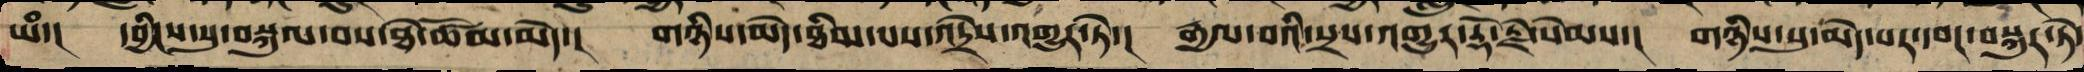ཡཾ་། དབྱིངས་སུ་བསྐུལ་བས་ཐེ་ཚོམ་མེད་། གཉིས་མེད་ཐིམ་པས་འདྲེས་འགྱུར་ཏེ་། རྒྱལ་བའི་སྲས་འགྱུར་རྡོ་རྗེ་སེམས་། གཉིས་སུ་མེད་པར་དབང་བསྐུར་ཏེ་
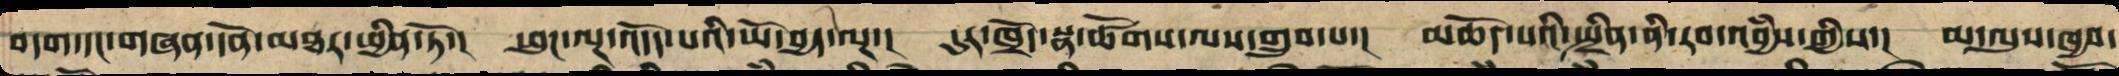བདག་དང་གཞན་དོན་མཐར་ཕྱིན་ཏོ་། ཕུང་ལྔ་འདོད་པའི་ཡོ་བྱད་ལྔ་། དུར་ཁྲོད་སྣ་ཚོགས་ལས་གྲུབ་པ་། མཆོད་པའི་སྤྲིན་ནི་རབ་འབྱཾས་ཀྱིས་། མ་ལུས་ཁྱབ་
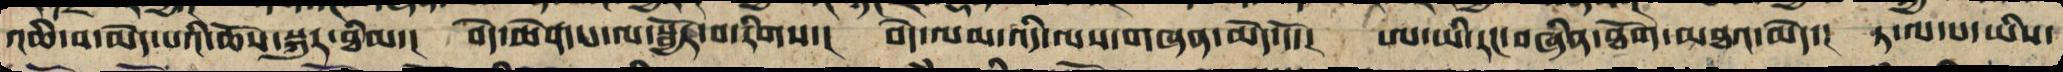འཆི་བ་མེད་པའི་ཆོས་སྐུར་ཐིམ་། བདེ་ཆེན་ས་ལ་སྦྱོར་བ་རིགས་། བདེ་ལམ་འདི་ལས་གཞན་མེད་དོ་། ཨ་ཡི་རང་བཞིན་ཐོག་མཐའ་མེད་། ཏ་ལ་པ་ཡིས་
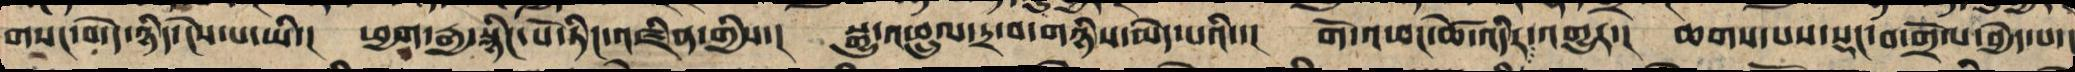གསང་བ་དེ་ཉིད་ངེས་པ་ཡིས་། ཕྱག་རྒྱ་སྙིང་པོ་ཏིང་འཛིན་གྱིས་། སྒྱུ་འཕྲུལ་དྲ་བ་གཉིས་མེད་པའི་། གོ་འཕང་ཚེ་འདིར་འགྱུར་། ཆགས་པས་སྡང་བ་གྲོལ་བྱེད་པ་།
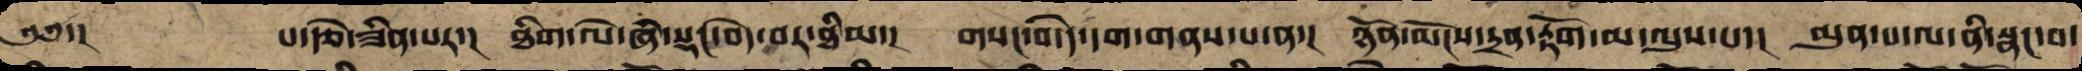༄༅་། པ་རྩེ་ཟིན་པར་། ཐིག་ལེ་ཞེ་སྡང་བདེ་བར་ཐིམ་། གསང་བ་དེ་དག་གནས་པ་ན་། ཉོན་མོངས་དྲན་རྟོག་མ་ལུས་པ་། མུན་པ་ལ་ནི་སྣང་བ་
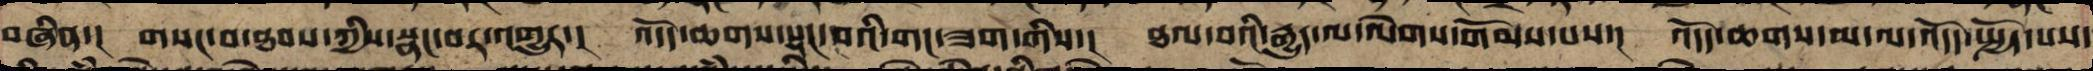བཞིན་། གསང་བ་ཐབས་ཀྱི་སྣང་བར་འགྱུར་། འདོད་ཆགས་སྡང་བའི་གང་ཟག་གིས་། ཐལ་བའི་རྒྱུད་ལ་ལེགས་གོམས་པས་། འདོད་ཆགས་མ་ལ་འདོད་སྤྱད་པས་
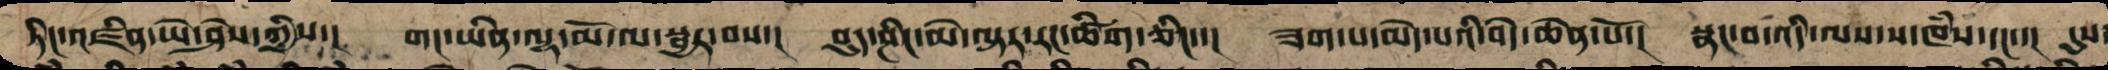ཏིང་འཛིན་ཡེ་ཤེས་ཀྱི་། གང་ཡིན་ལྷ་མོ་ལ་སྦྱར་བས་། བུད་ཤིང་མེ་ལྟར་རང་ཚིག་ཅིང་་། ཟག་པ་མེད་པའི་བདེ་ཆེན་པོ་། སྣང་བ་འདི་ལས་ས་ཁཾས་དང་་། དུས་
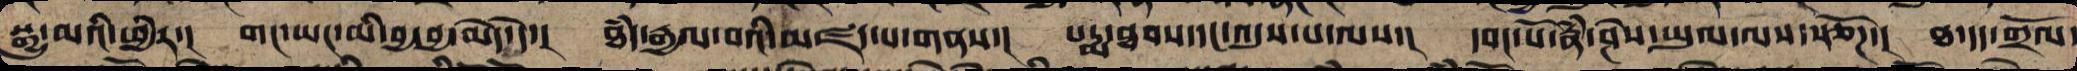སྒྱུ་མའི་ཕྱིར་། གང་ཡང་མི་བྱ་བྱ་མེད་དེ་། ཐཾད་རྒྱལ་བའི་མཛད་པར་གནས་། པདྨ་ཐབས་དང་འདུས་པ་ལས་། དབང་པོ་རྣཾ་ཤེས་ཡུལ་ལས་རྩོཌ་། ཐ་དད་གྲོལ་
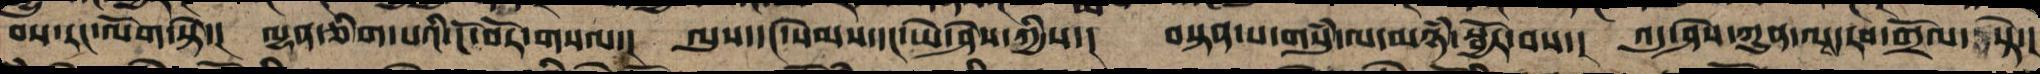བས་རང་ལོག་སྟེ་། ལྷན་ཅིག་སྐྱེས་པའི་ངོ་བོར་གསལ་། ལུས་དང་སེམས་དང་ཡེ་ཤེས་ཀྱིས་། བསྟན་པ་གསུཾ་ལ་མཉཾ་སྦྱོར་བས་། འདུ་ཤེས་ཀུན་ལས་རབ་གྲོལ་སྟེ་།
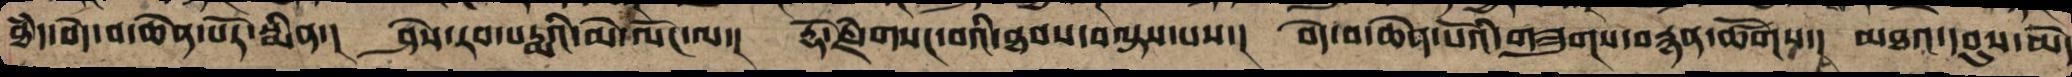ཐཾད་བདེ་བ་ཆེན་པོར་སྨིན་། ཤེས་རབ་པདྨའི་མེ་ལོང་ལ་། རྡོ་རྗེ་གསང་བའི་ཐབས་བལྟས་པས་། བདེ་བ་ཆེན་པོའི་གཟུགས་བརྙན་ཚོགས་། མཐའ་དབུས་མེད
